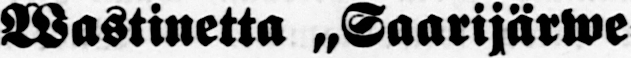Wastinetta „Saarijärwe-
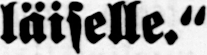läiselle."
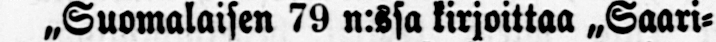„ Suomalaisen 79 n:ssa kirjoittaa „Saari-
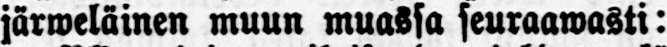järweläinen muun muassa seuraawasti:
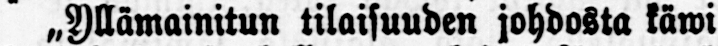„ Yllämainitun tilaisuuden johdosta käwi
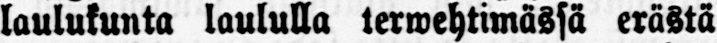laulukunta laululla terwehtimässä erästä
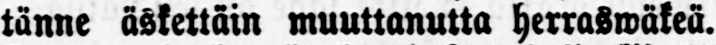tänne äskettäin muuttanutta herraswäkeä.
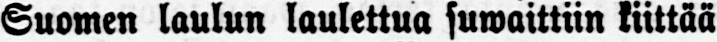Suomen laulun laulettua suwaittiin kiittää
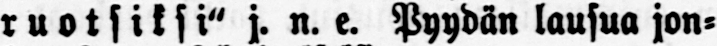ruotsiksi" j. n. e. Pyydän lausua jon-
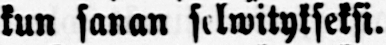kun sanan selwitykseksi.
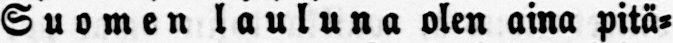Suomen lauluna olen aina pitä-
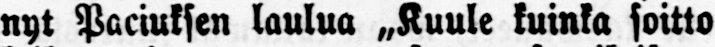nyt Paciuksen laulua „ Kuule kuinka soitto
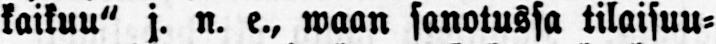kaikuu" j. n. e., waan sanotussa tilaisuu-
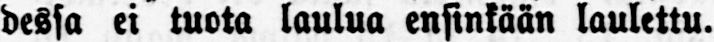dessa ei tuota laulua ensinkään laulettu.
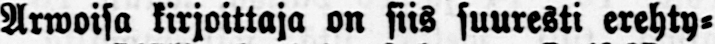Arwoisa kirjoittaja on siis suuresti erehty-
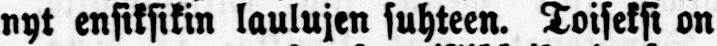nyt ensiksikin laulujen suhteen. Toiseksi on
